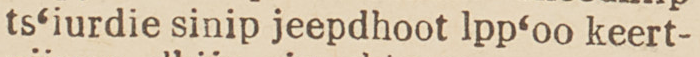ts'iurdie sinip jeepdhoot lpp'oo keert-
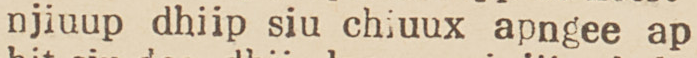njiuup dhiip siu chiuux apngee ap
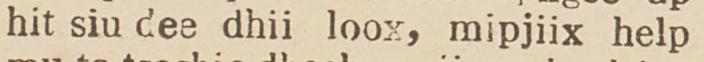hit siu dee dhii loox, mipjiix help
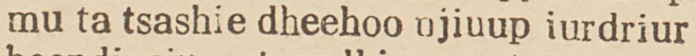mu ta tsashie dheehoo njiuup iurdriur
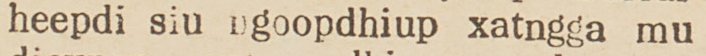heepdi siu ngoopdhiup xatngga mu
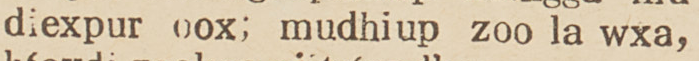diexpur oox; mudhiup zoo la wxa,
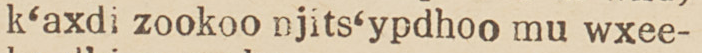k'axdi zookoo njits'ypdhoo mu wxee-
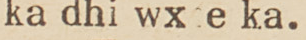ka dhi wxie ka.
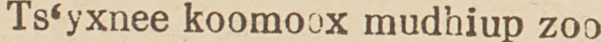Ts'yxnee koomoox mudhiup zoo
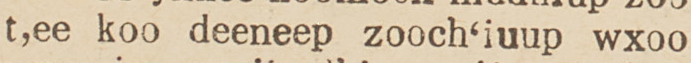t,ee koo deeneep zooch'iuup wxoo
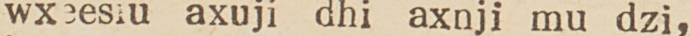wxeesiu axuji dhi axnji mu dzi,
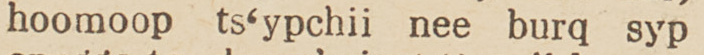hoomoop ts'ypchii nee burq syp
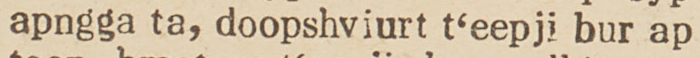apngga ta, doopshviurt t'eepji bur ap
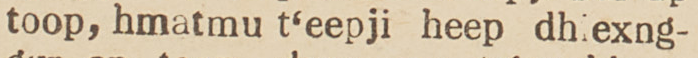toop, hmatmu t'eepji heep dhiexng-
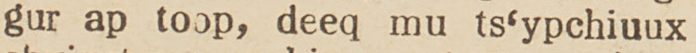gur ap toop, deeq mu ts'ypchiuux
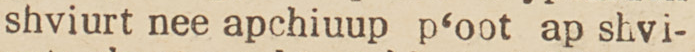shviurt nee apchiuup p'oot ap shvi-
